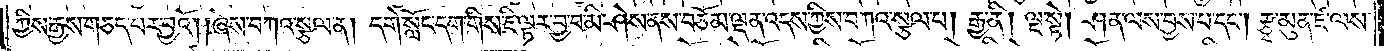ཀྱིས་རྒྱས་གཅད་པར་བྱའོ། །ཞེས་བཀའ་སྩལ་ན། དགེ་སློང་དག་གིས་ཇི་ལྟར་བྱ་བ་མི་ཤེས་ནས་བཅོམ་ལྡན་འདས་ཀྱིས་བཀའ་སྩལ་པ། རྒྱ་ནི། ལྔ་སྟེ། ཤན་ལས་བྱས་པ་དང༌། རྩྭ་མུན་ཛ་ལས་
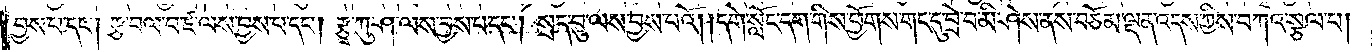བྱས་པ་དང༌། རྩ་བལ་བ་ཛ་ལས་བྱས་པ་དང༌། རྩྭ་ཀུ་ཤ་ལས་བྱས་པ་དང༌། སྲད་བུ་ལས་བྱས་པའོ། །དགེ་སློང་དག་གིས་ཕྱོགས་གང་དུ་བྲེ་བ་མི་ཤེས་ནས་བཅོམ་ལྡན་འདས་ཀྱིས་བཀའ་སྩལ་པ།
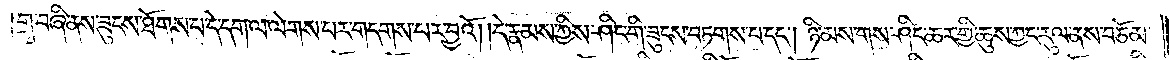གྲྭ་བཞི་ནས་ཟུངས་ཐོགས་པ་དེ་དག་ལ་ལེགས་པར་གདགས་པར་བྱའོ། །དེ་རྣམས་ཀྱིས་ཤིང་གི་ཟུངས་བཏགས་པ་དང༌། ཉི་མས་གས་ཤིང་ཆར་གྱི་ཆུས་ཀྱང་རུལ་ནས་བཅོམ་
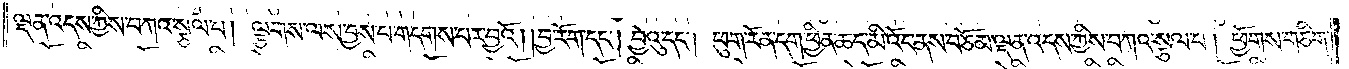ལྡན་འདས་ཀྱིས་བཀའ་སྩལ་པ། ལྕགས་ལས་བྱས་པ་གདགས་པར་བྱའོ། །བྱ་རོག་དང༌། བྱེའུ་དང༌། ཕུག་རོན་དག་ཕྱིན་ཆད་མི་འོང་ནས་བཅོམ་ལྡན་འདས་ཀྱིས་བཀའ་སྩལ་པ། ཕྱོགས་གཅིག་
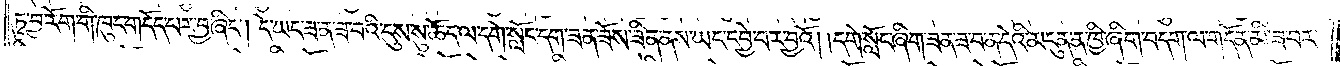ཏུ་བྱ་རོག་གི་ཁུང་གདོད་པར་བྱ་ཞིང༌། དེ་ཡང་ཟ་ན་ཟ་བའི་དུས་སུ་ཆོད་ལ་དགེ་སློང་དག་ཟན་ཟོས་ཟིན་ནས་ཡང་དབྱེ་བར་བྱའོ། །དགེ་སློང་ཞིག་ཟན་ཟ་བ་ན་དེའི་མདུན་ན་ཁྱི་ཞིག་བདག་ལ་གདོན་མི་ཟ་བར་
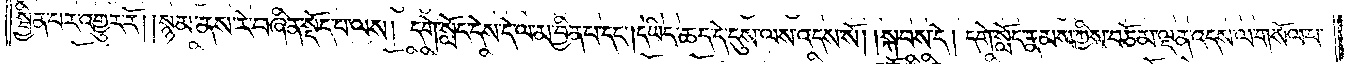སྦྱིན་པར་འགྱུར་རོ། །སྙམ་ནས་རེ་བཞིན་སྡོད་པ་ལས། དགེ་སློང་དེས་དེ་ལ་མ་བྱིན་པ་དང༌། དེ་ཡིད་ཆད་དེ་དུས་ལས་འདས་སོ། །སྐབས་དེ། དགེ་སློང་རྣམས་ཀྱིས་བཅོམ་ལྡན་འདས་ལ་གསོལ་པ་
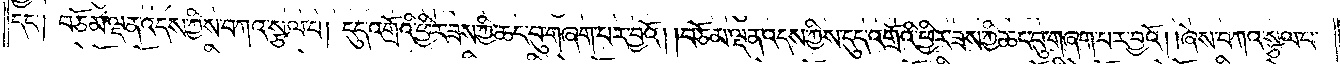དང༌། བཅོམ་ལྡན་འདས་ཀྱིས་བཀའ་སྩལ་པ། དུད་འགྲོའི་ཕྱིར་ཟས་ཀྱི་ཆང་བུ་གཞག་པར་བྱའོ། །བཅོམ་ལྡན་འདས་ཀྱིས་དུད་འགྲོའི་ཕྱིར་ཟས་ཀྱི་ཆང་བུ་གཞག་པར་བྱའོ། །ཞེས་བཀའ་སྩལ་པ་
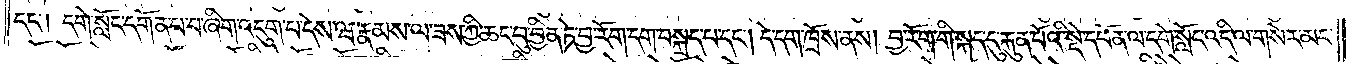དང༌། དགེ་སློང་དགོན་པ་བ་ཞིག་འདུག་པ་དེས་ཝ་རྣམས་ལ་ཟས་ཀྱི་ཆང་བུ་བྱིན་ཏེ་བྱ་རོག་དག་བསྐྲད་པ་དང༌། དེ་དག་ཁྲོས་ནས། བྱ་རོག་གི་སྐད་དུ་རྐུན་པོའི་སྡེ་དཔོན་ལ་དགེ་སློང་འདི་ལ་གསེར་མང་
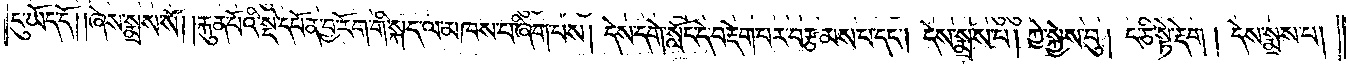དུ་ཡོད་དོ། །ཞེས་སྨྲས་སོ། །རྐུན་པོའི་སྡེ་དཔོན་བྱ་རོག་གི་སྐད་ལ་མཁས་པ་ཞིག་པས། དེས་དགེ་སློང་དེ་བརྡེག་བར་བརྩམས་པ་དང༌། དེས་སྨྲས་པ། ཀྱེ་སྐྱེས་བུ། ང་ཅི་སྟེ་རྡེག །དེས་སྨྲས་པ།
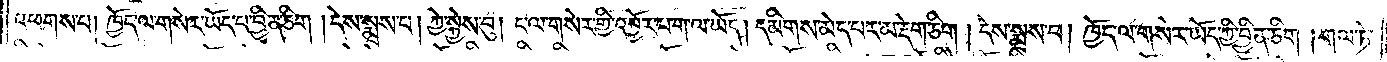འཕགས་པ། ཁྱོད་ལ་གསེར་ཡོད་པ་བྱིན་ཅིག །དེས་སྨྲས་པ། ཀྱེ་སྐྱེས་བུ། ང་ལ་གསེར་གྱི་འབྱོར་པ་ག་ལ་ཡོད། དམིགས་མེད་པར་མ་རྡེག་ཅིག །དེས་སྨྲས་པ། ཁྱོད་ལ་གསེར་ཡོད་ཀྱི་བྱིན་ཅིག །གལ་ཏེ་
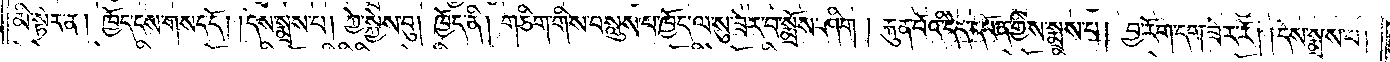མི་སྟེར་ན། ཁྱོད་ངས་གསད་དོ། །དེས་སྨྲས་པ། ཀྱེ་སྐྱེས་བུ། ཁྱོད་ནི། གཅིག་གིས་བསླུས་པ་ཁྱོད་ལ་སུ་ཟེར་བ་སྨྲོས་ཤིག །རྐུན་པོའི་དེད་དཔོན་གྱིས་སྨྲས་པ། བྱ་རོག་དག་ཟེར་རོ། །དེས་སྨྲས་པ།
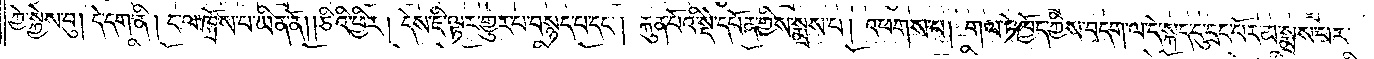ཀྱེ་སྐྱེས་བུ། དེ་དག་ནི། ང་ལ་ཁྲོས་པ་ཡིན་ནོ། །ཅིའི་ཕྱིར། དེས་ཇི་ལྟར་གྱུར་པ་བསྙད་པ་དང༌། རྐུན་པོའི་སྡེ་དཔོན་གྱིས་སྨྲས་པ། འཕགས་པ། གལ་ཏེ་ཁྱོད་ཀྱིས་བདག་ལ་དེ་སྐད་དུ་དྲང་པོར་མ་སྨྲས་པར་
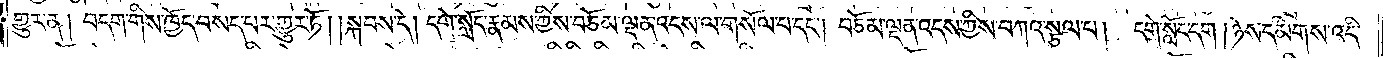གྱུར་ན། བདག་གིས་ཁྱོད་བསད་པར་གྱུར་ཏོ། །སྐབས་དེ། དགེ་སློང་རྣམས་ཀྱིས་བཅོམ་ལྡན་འདས་ལ་གསོལ་པ་དང༌། བཅོམ་ལྡན་འདས་ཀྱིས་བཀའ་སྩལ་པ། དགེ་སློང་དག །ཉེས་དམིགས་འདི་
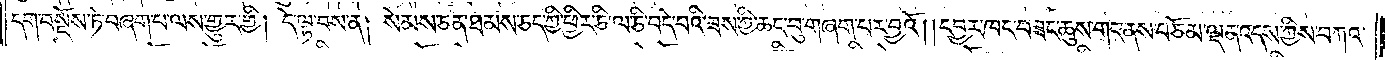དག་བསྔོས་ཏེ་བཞག་པ་ལས་གྱུར་གྱི། དེ་ལྟ་བས་ན། སེམས་ཅན་ཐམས་ཅད་ཀྱི་ཕྱིར་ཅི་ལ་ཅི་བདེ་བའི་ཟས་ཀྱི་ཆང་བུ་གཞག་པར་བྱའོ། །དབྱར་ཁང་བཟང་ཆུས་གང་ནས་བཅོམ་ལྡན་འདས་ཀྱིས་བཀའ་
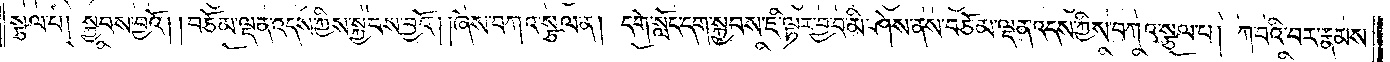སྩལ་པ། སྐྱབས་བྱའོ། །བཅོམ་ལྡན་འདས་ཀྱིས་སྐྱབས་བྱའོ། །ཞེས་བཀའ་སྩལ་ན། དགེ་སློང་དག་སྐྱབས་ཇི་ལྟར་བྱ་བ་མི་ཤེས་ནས་བཅོམ་ལྡན་འདས་ཀྱིས་བཀའ་སྩལ་པ། ཀ་བའི་བར་རྣམས་
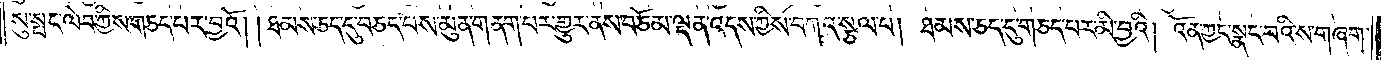སུ་སྤང་ལེབ་ཀྱིས་གཅད་པར་བྱའོ། །ཐམས་ཅད་དུ་བཅད་པས་མུན་གནག་པར་གྱུར་ནས་བཅོམ་ལྡན་འདས་ཀྱིས་བཀའ་སྩལ་པ། ཐམས་ཅད་དུ་གཅད་པར་མི་བྱའི། འོན་ཀྱང་སྣང་བའི་ས་གཞག་
